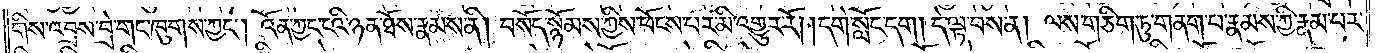གིས་འབྲས་བྲེ་གང་ཁུགས་ཀྱང༌། འོན་ཀྱང་ངའི་ཉན་ཐོས་རྣམས་ནི། བསོད་སྙོམས་ཀྱིས་ཕོངས་པར་མི་འགྱུར་རོ། །དགེ་སློང་དག །དེ་ལྟ་བས་ན། ལས་གཅིག་ཏུ་གནག་པ་རྣམས་ཀྱི་རྣམ་པར་
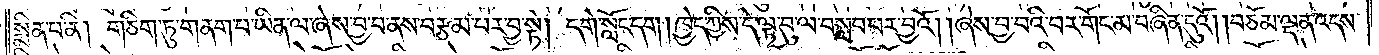སྨིན་པ་ནི། གཅིག་ཏུ་གནག་པ་ཡིན་ལ་ཞེས་བྱ་བ་ནས་བརྩམ་པར་བྱ་སྟེ། དགེ་སློང་དག །ཁྱེད་ཀྱིས་དེ་ལྟ་བུ་ལ་བསླབ་པར་བྱའོ། །ཞེས་བྱ་བའི་བར་གོང་མ་བཞིན་དུའོ། །བཅོམ་ལྡན་འདས་
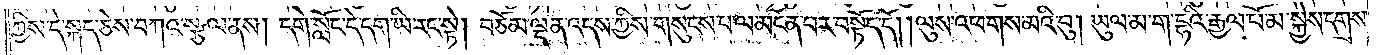ཀྱིས་དེ་སྐད་ཅེས་བཀའ་སྩལ་ནས། དགེ་སློང་དེ་དག་ཡི་རང་སྟེ། བཅོམ་ལྡན་འདས་ཀྱིས་གསུངས་པ་ལ་མངོན་པར་བསྟོད་དོ། །ལུས་འཕགས་མའི་བུ། ཡུལ་མ་ག་དྷའི་རྒྱལ་པོ་མ་སྐྱེས་དགྲས་
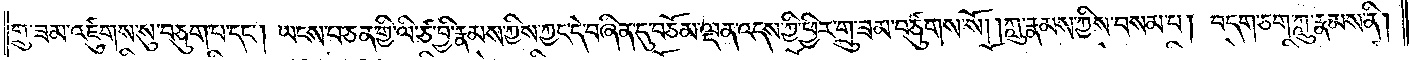གྲུ་ཟམ་འཛུགས་སུ་བཅུག་པ་དང༌། ཡངས་པ་ཅན་གྱི་ལི་ཙ་བྱི་རྣམས་ཀྱིས་ཀྱང་དེ་བཞིན་དུ་བཅོམ་ལྡན་འདས་ཀྱི་ཕྱིར་གྲུ་ཟམ་བཙུགས་སོ། །ཀླུ་རྣམས་ཀྱིས་བསམ་པ། བདག་ཅག་ཀླུ་རྣམས་ནི།
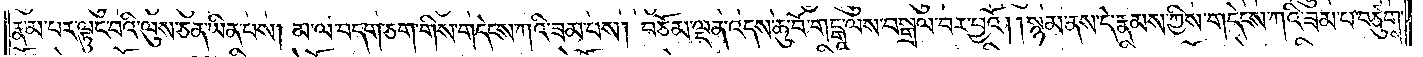རྣམ་པར་ལྟུང་བའི་ལུས་ཅན་ཡིན་པས། མ་ལ་བདག་ཅག་གིས་གདེངས་ཀའི་ཟམ་པས། བཅོམ་ལྡན་འདས་ཆུ་བོ་གངྒཱ་ལས་བསྒྲལ་བར་བྱའོ། །སྙམ་ནས་དེ་རྣམས་ཀྱིས་གདེངས་ཀའི་ཟམ་པ་བཙུགས་
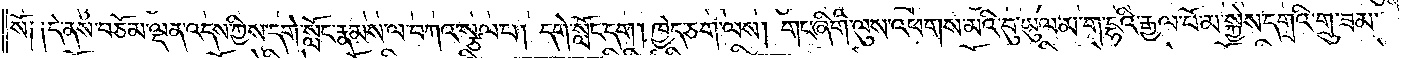སོ༑༑ དེ་ནས་བཅོམ་ལྡན་འདས་ཀྱིས་དགེ་སློང་རྣམས་ལ་བཀའ་སྩལ་པ། དགེ་སློང་དག། ཁྱེད་ཅག་ལས། གང་ཞིག་ལུས་འཕགས་མའི་བུ་ཡུལ་མ་ག་དྷའི་རྒྱལ་པོ་མ་སྐྱེས་དགྲའི་གྲུ་ཟམ་
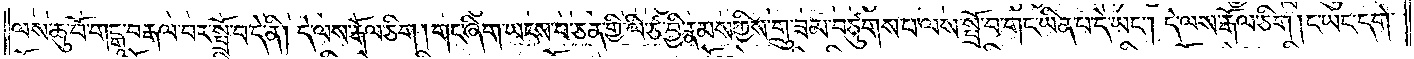ལས་ཆུ་བོ་གངྒཱ་བརྒལ་བར་སྤྲོ་བ་དེ་ནི། དེ་ལས་རྒོལ་ཅིག །གང་ཞིག་ཡངས་པ་ཅན་གྱི་ལི་ཙ་བྱི་རྣམས་ཀྱིས་གྲུ་ཟམ་བཙུགས་པ་ལས་སྤྲོ་བ་གང་ཡིན་པ་དེ་ཡང༌། དེ་ལས་རྒོལ་ཅིག །ང་ཡང་དགེ་
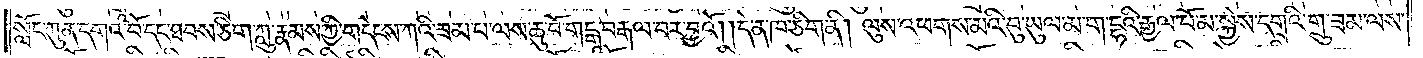སློང་ཀུན་དགའ་བོ་དང་ཐབས་ཅིག་ཀླུ་རྣམས་ཀྱི་གདེངས་ཀའི་ཟམ་པ་ལས་ཆུ་བོ་གངྒཱ་བརྒལ་བར་བྱའོ། །དེ་ན་ཁ་ཅིག་ནི། ལུས་འཕགས་མའི་བུ་ཡུལ་མ་ག་དྷའི་རྒྱལ་པོ་མ་སྐྱེས་དགྲའི་གྲུ་ཟམ་ལས་
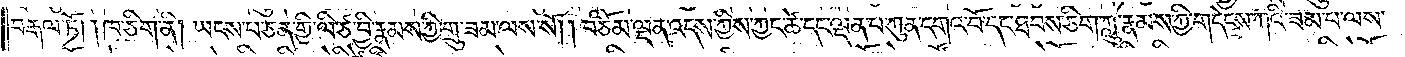བརྒལ་ཏོ། །ཁ་ཅིག་ནི། ཡངས་པ་ཅན་གྱི་ལི་ཙ་བྱི་རྣམས་ཀྱི་གྲུ་ཟམ་ལས་སོ། །བཅོམ་ལྡན་འདས་ཀྱིས་ཀྱང་ཚེ་དང་ལྡན་པ་ཀུན་དགའ་བོ་དང་ཐབས་ཅིག་ཀླུ་རྣམས་ཀྱི་གདེངས་ཀའི་ཟམ་པ་ལས་
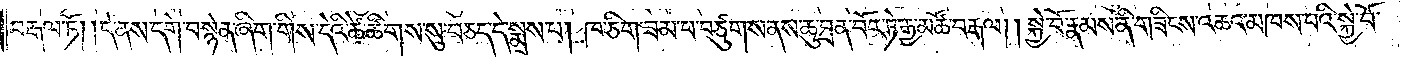བརྒལ་ཏོ། །དེ་ནས་དགེ་བསྙེན་ཞིག་གིས་དེའི་ཚེ་ཚིགས་སུ་བཅད་དེ་སྨྲས་པ། ཁ་ཅིག་ཟམ་པ་བཙུགས་ནས་ཆུ་བྲན་བོར་ཏེ་རྒྱ་མཚོ་བརྒལ། །སྐྱེ་བོ་རྣམས་ནི་གཟིངས་འཆའ་མཁས་པའི་སྐྱེ་བོ་
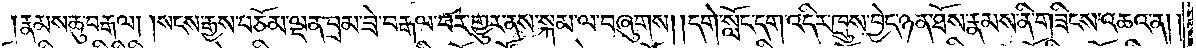རྣམས་ཆུ་བརྒལ། །སངས་རྒྱས་བཅོམ་ལྡན་བྲམ་ཟེ་བརྒལ་བར་གྱུར་ནས་སྐམ་ལ་བཞུགས། །དགེ་སློང་དག་འདིར་ཁྲུས་བྱེད་ཉན་ཐོས་རྣམས་ནི་གཟིངས་འཆའ་ན།
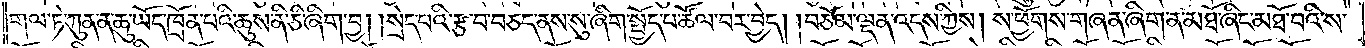གལ་ཏེ་ཀུན་ན་ཆུ་ཡོད་ཁྲོན་པའི་ཆུས་ནི་ཅི་ཞིག་བྱ། །སྲེད་པའི་རྩ་བ་བཅད་ནས་སུ་ཞིག་སྤྱོད་པ་ཚོལ་བར་བྱེད། །བཅོམ་ལྡན་འདས་ཀྱིས། ས་ཕྱོགས་གཞན་ཞིག་ན་མཐོ་ཞིང་མཐོ་བའི་ས་
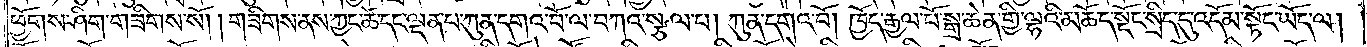ཕྱོགས་ཤིག་གཟིགས་སོ། །གཟིགས་ནས་ཀྱང་ཚེ་དང་ལྡན་པ་ཀུན་དགའ་བོ་ལ་བཀའ་སྩལ་པ། ཀུན་དགའ་བོ། ཁྱོད་རྒྱལ་པོ་སྒྲ་ཆེན་གྱི་ལྷའི་མཆོད་སྡོང་སྲིད་དུ་འདོམ་སྟོང་ཡོད་ལ།
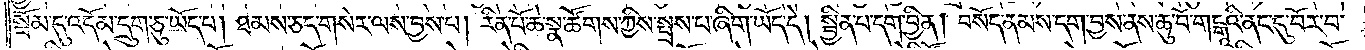སྦོམ་དུ་འདོམ་དྲུག་ཅུ་ཡོད་པ། ཐམས་ཅད་གསེར་ལས་བྱས་པ། རིན་པོ་ཆེ་སྣ་ཚོགས་ཀྱིས་སྤྲས་པ་ཞིག་ཡོད་དེ། སྦྱིན་པ་དག་བྱིན། བསོད་ནམས་དག་བྱས་ནས་ཆུ་བོ་གངྒཱའི་ནང་དུ་བོར་བ་
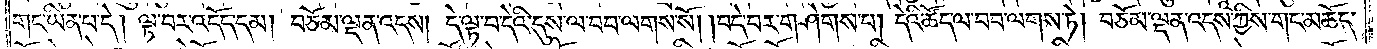གང་ཡིན་པ་དེ། ལྟ་བར་འདོད་དམ། བཅོམ་ལྡན་འདས། དེ་ལྟ་བ་དེའི་དུས་ལ་བབ་ལགས་སོ། །བདེ་བར་གཤེགས་པ། དེའི་ཚོད་ལ་བབ་ལགས་ཏེ། བཅོམ་ལྡན་འདས་ཀྱིས་གང་མཆོད་
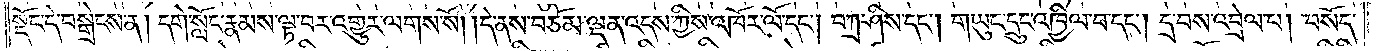སྡོང་དེ་བསྒྲེངས་ན། དགེ་སློང་རྣམས་ལྟ་བར་འགྱུར་ལགས་སོ། །དེ་ནས་བཅོམ་ལྡན་འདས་ཀྱིས་འཁོར་ལོ་དང༌། བཀྲ་ཤིས་དང༌། གཡུང་དྲུང་འཁྱིལ་བ་དང༌། དྲ་བས་འབྲེལ་པ། བསོད་
